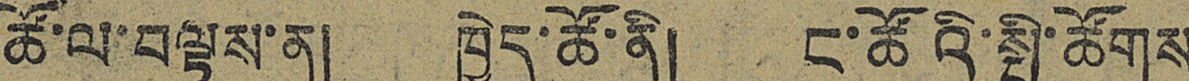ཚོ་ལ་བལྟས་ན། ཁྱེད་ཚོ་ནི། ང་ཚོའི་སྤྱི་ཚོགས
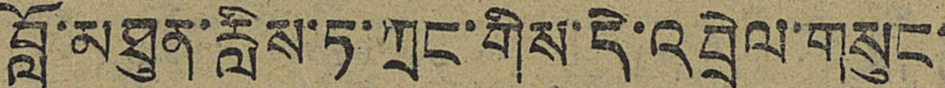བློ་མཐུན་རླིས་ཏ་ཀྲང་གིས་དེ་འབྲེལ་གསུང་
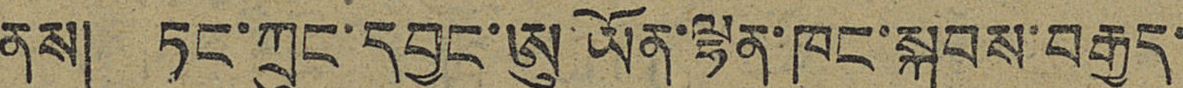ནས། ཏང་ཀྲུང་དབྱང་ཨུ་ཡོན་ལྷན་ཁང་སྐབས་བརྒྱད་
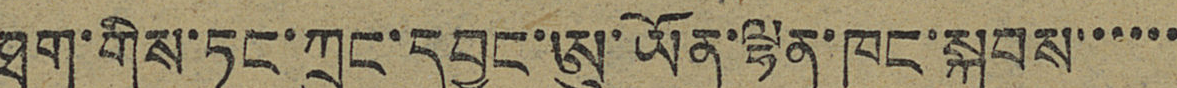ཐག་གིས་ཏང་ཀྲུང་དབྱང་ཨུ་ཡོན་ལྷན་ཁང་སྐབས་་་་་་
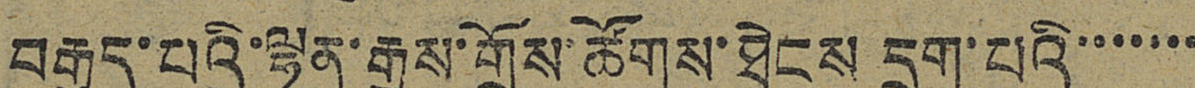བརྒྱད་པའི་ལྷན་རྒྱས་གྲོས་ཚོགས་ཐེངས དྲུག་པའི་་་་་་་
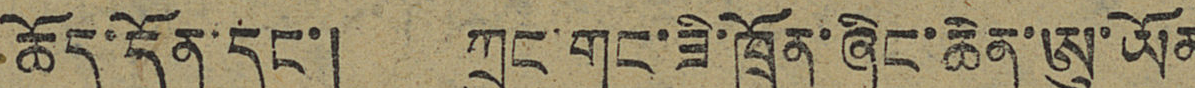ཆོད་དོན་དང་། ཀྲུང་གུང་ཟི་ཁྲོན་ཞིང་ཆེན་ཨུ་ཡོན
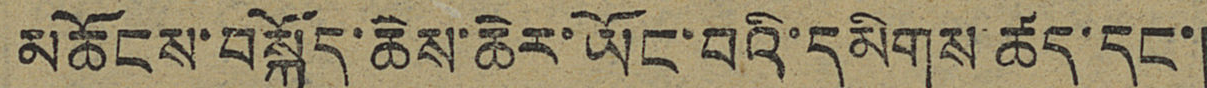མཆོངས་བསྐྱོད་ཆེས་ཆེར་ཡོང་བའི་དམིགས ཚད་དང་།
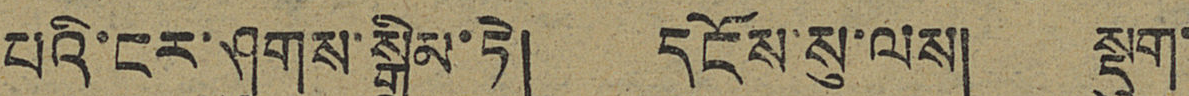པའི་ངར་ཤུགས་སྒྲིམ་ཏེ། དངོས་སུ་ལས། སྡུག་
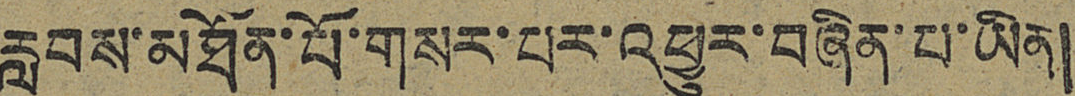རླབས་མཐོན་པོ་གསར་པར་འཕྱུར་བཞིན་པ་ཡིན།
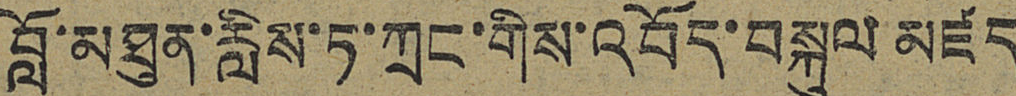བློ་མཐུན་རླིས་ཏ་ཀྲང་གིས་འབོད་བསྐུལ་མཛད
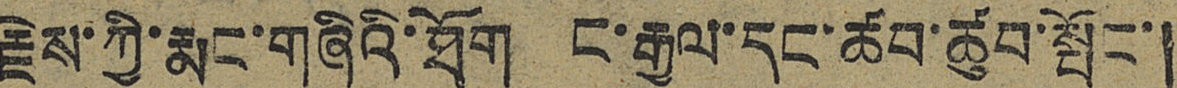རྗེས་ཀྱི་རྨང་གཞིའི་ཐོག ང་རྒྱལ་དང་ཚབ་ཚུབ་སྤོང་།
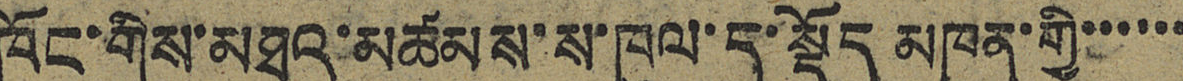ཁོང་གིས་མཐའ་མཚམས་ས་ཁུལ་དུ་སྡོད མཁན་གྱི་་་་་་
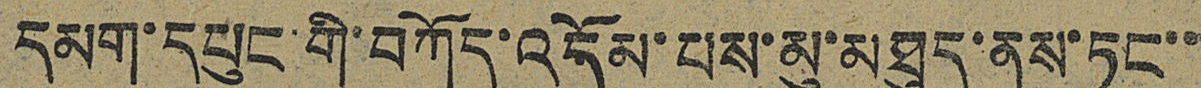དམག་དཔུང་གི་བཀོད་འདོམ་པས་མུ་མཐུད་ནས་ཏང་་
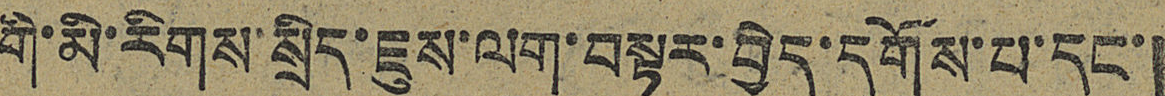གི་མི་རིགས་སྲིད་ཇུས་ལག་བསྟར་བྱེད་དགོས་པ་དང་།
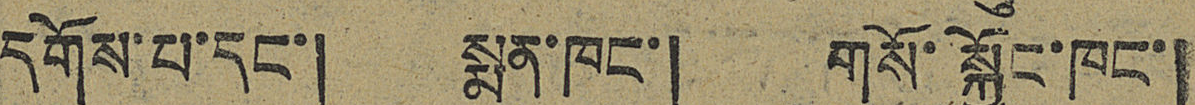དགོས་པ་དང་། སྨན་ཁང་། གསོ་སྐྱོང་ཁང་།
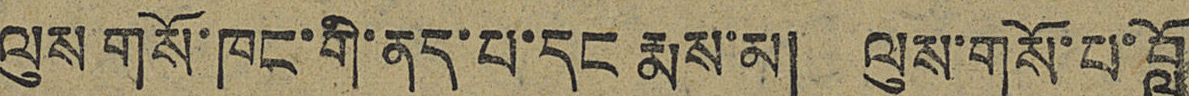ལུས གསོ་ཁང་གི་ནད་པ་དང རྨས་མ། ལུས་གསོ་པ་བློ
